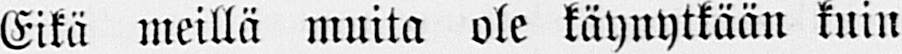Eikä meillä muita ole käynytkään kuin
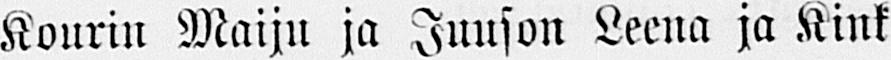Kourin Maiju ja Juuson Leena ja Kink-
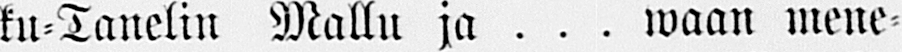ku-Tanelin Mallu ja . . . waan mene-
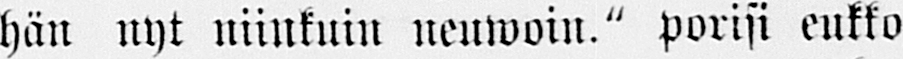hän nyt niinkuin neuwoin." porisi eukko
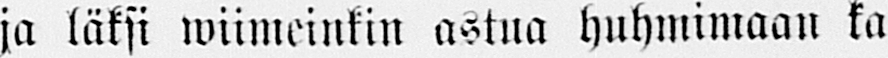ja läksi wiimeinkin astua huhmimaan ka-
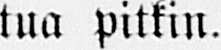tua pitkin.
